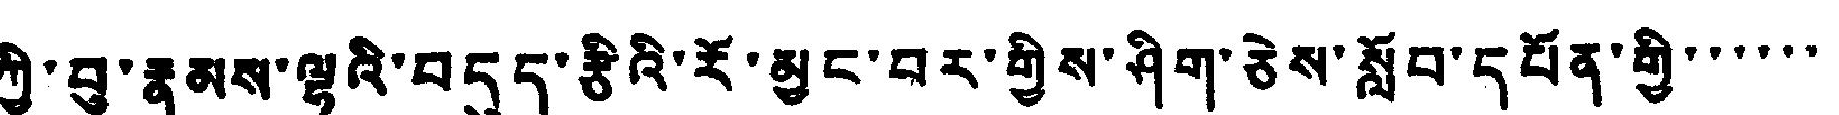ཀྱི་བུ་རྣམས་ལྷའི་བདུད་རྩིའི་རོ་མྱང་བར་གྱིས་ཤིག་ཅེས་སློབ་དཔོན་གྱི་་་་་་
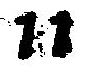11
